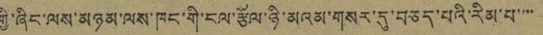གྱི་ཞིང་ལས་མཉམ་ལས་ཁང་གི་ངལ་རྩོལ་ཉི་མའམ་གསར་དུ་བཅད་པའི་རིམ་པ་་་་
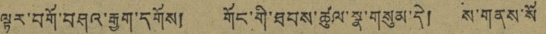ལྟར་བགོ་བཤའ་རྒྱག་དགོས། གོང་གི་ཐབས་ཚུལ་སྣ་གསུམ་དེ། ས་གནས་སོ
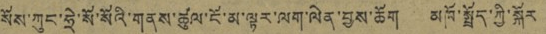སོས་ཀུང་ཧྲེ་སོ་སོའི་གནས་ཚལ་ངོ་མ་ལྟར་ལག་ལེན་བྱས་ཆོག མཁོ་སྤྲོད་ཀྱི་སྐོར
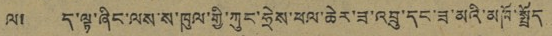ལ། ད་ལྟ་ཞིང་ལས་ས་ཁུལ་གྱི་ཀུང་ཧྲེས་ཕལ་ཆེར་ཟ་འབྲུ་དང་ཟ་མའི་མཁོ་སྤྲོད
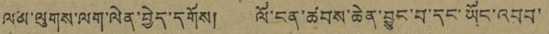ལམ་ལུགས་ལག་ལེན་བྱེད་དགོས། ལོ་ངན་ཚབས་ཆེན་བྱུང་བ་དང་ཡོང་འབབ་
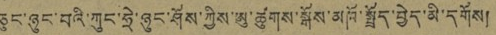ཅུང་ཉུང་བའི་ཀུང་ཧྲེ་ཉུང་ཤོས་ཀྱིས་ཨུ་ཚུགས་སྐོས་མཁོ་སྤྲོད་བྱེད་མི་དགོས།
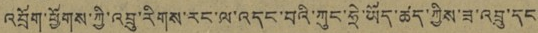འབྲོག་ཕྱོགས་ཀྱི་འབྲུ་རིགས་རང་ལ་འདང་བའི་ཀུང་ཧྲེ་ཡོད་ཚད་ཀྱིས་ཟ་འབྲུ་དང་
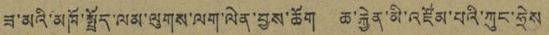ཟ་མའི་མཁོ་སྤྲོད་ལམ་ལུགས་ལག་ལེན་བྱས་ཆོག ཆ་རྐྱེན་མི་འཛོམ་པའི་ཀུང་ཧྲེས
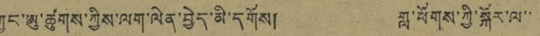ཀྱང་ཨུ་ཚུགས་ཀྱིས་ལག་ལེན་བྱེད་མི་དགོས། གླ་ཕོགས་ཀྱི་སྐོར་ལ་་
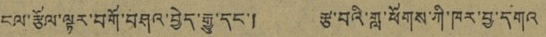ངལ་རྩོལ་ལྟར་བགོ་བཤའ་བྱེད་རྒྱུ་དང་། རྩ་བའི་གླ་ཕོགས་ཀྱི་ཁར་བྱ་དགའ
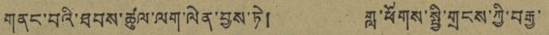གནང་བའི་ཐབས་ཚུལ་ལག་ལེན་བྱས་ཏེ། གླ་ཕོགས་སྤྱི་གྲངས་ཀྱི་བརྒྱ་
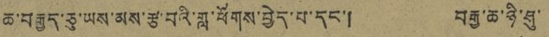ཆ་བརྒྱད་ཅུ་ཡས་མས་རྩ་བའི་གླ་ཕོགས་བྱེད་པ་དང་། བརྒྱ་ཆ་ཉི་ཤུ་
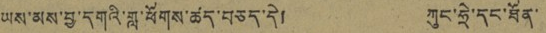ཡས་མས་བྱ་དགའི་གླ་ཕོགས་ཚད་བཅད་དེ། ཀུང་ཧྲེ་དང་ཐོན་
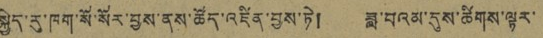སྐྱེད་རུ་ཁག་སོ་སོར་བྱས་ནས་ཚོད་འཛིན་བྱས་ཏེ། ཟླ་བའམ་དུས་ཚིགས་ལྟར་
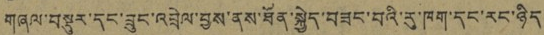གཞལ་བསྡུར་དང་ཟུང་འབྲེལ་བྱས་ནས་ཐོན་སྐྱེད་བཟང་བའི་རུ་ཁག་དང་རང་ཉིད
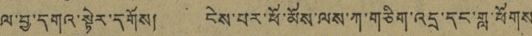ལ་བྱ་དགའ་སྟེར་དགོས། ངེས་པར་ཕོ་མོས་ལས་ཀ་གཅིག་འདྲ་དང་གླ་ཕོགས་
